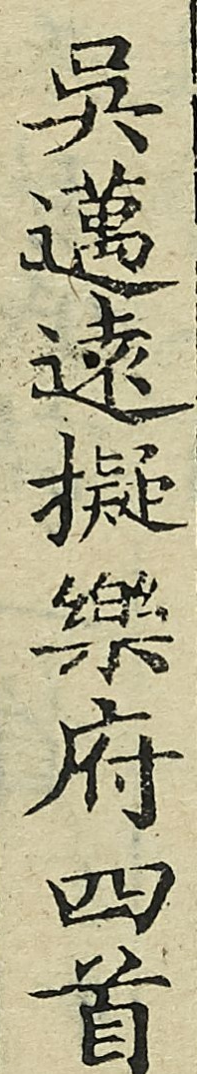吳邁遠擬樂府四首
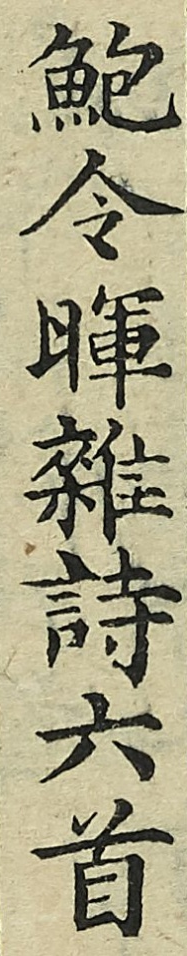鮑令暉雜詩六首
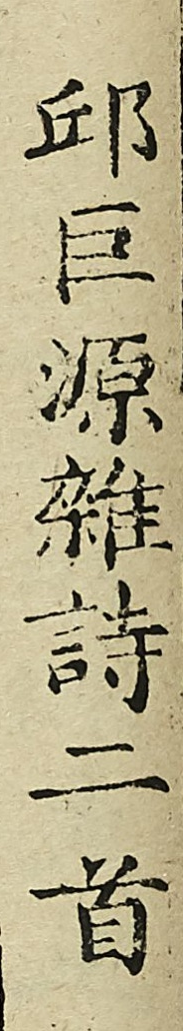邱巨源雜詩二首
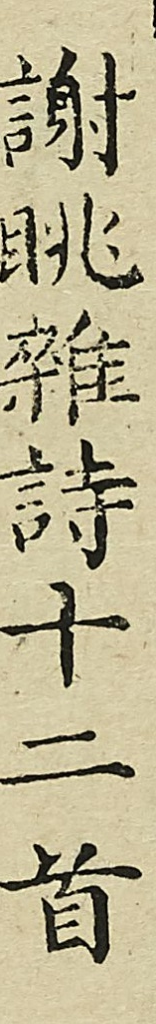謝朓雜詩十二首
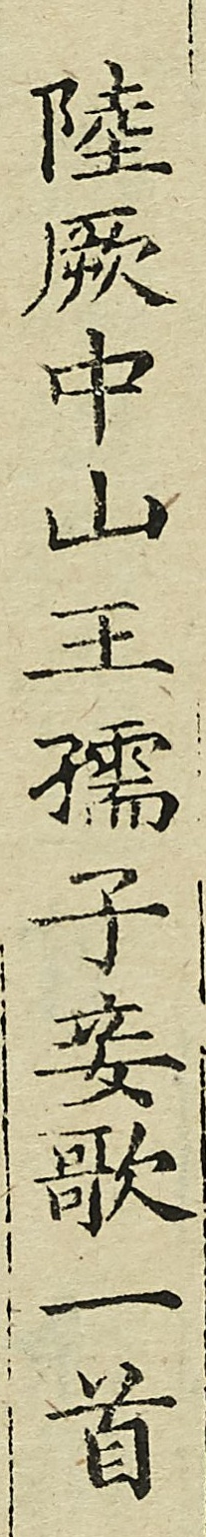陸厥中山王孺子妾歌一首
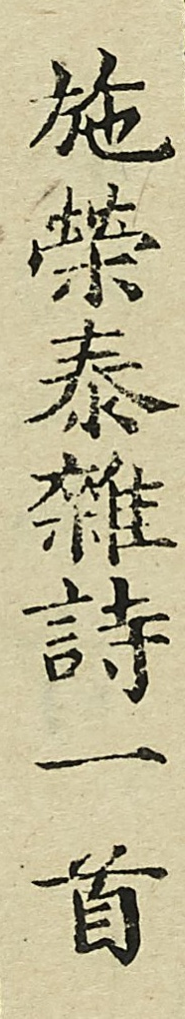施榮泰雜詩一首
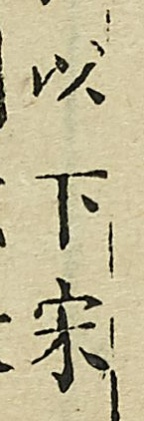以下宋
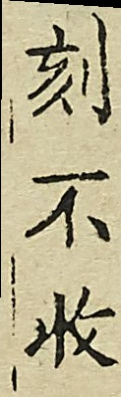刻不收
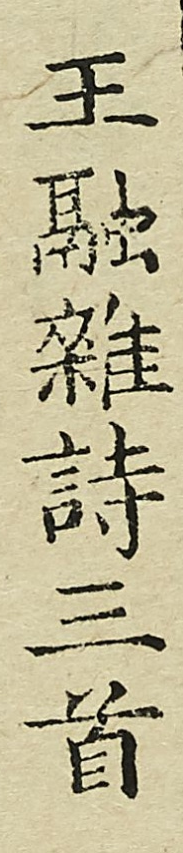王融雜詩三首
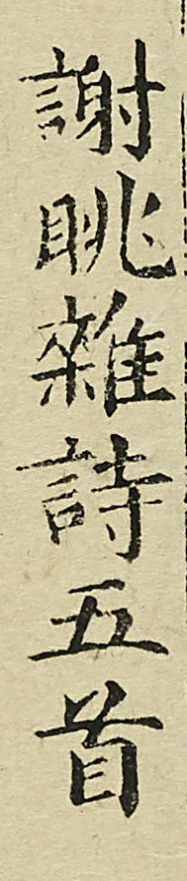謝朓雜詩五首
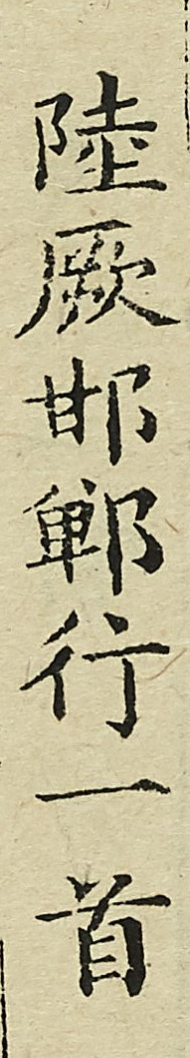陸厥邯鄲行一首
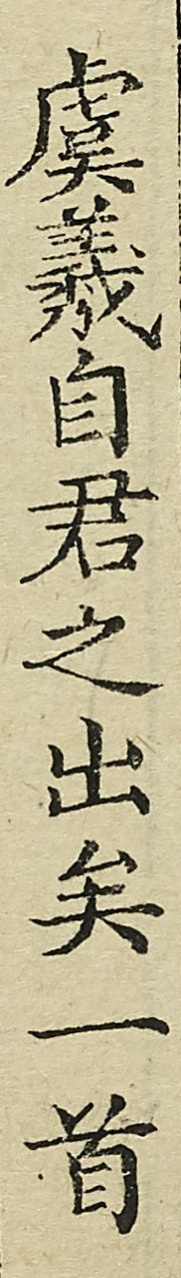虞羲自君之出矣一首
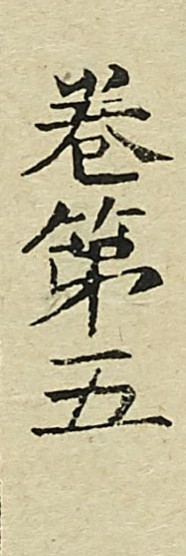卷第五
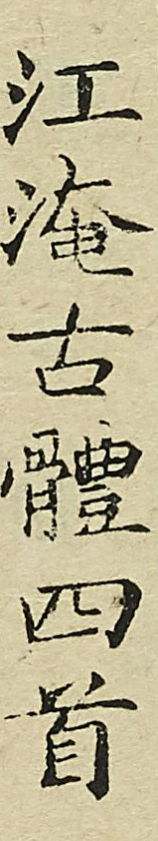江淹古體四首
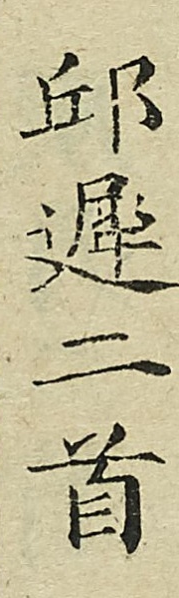邱遲二首
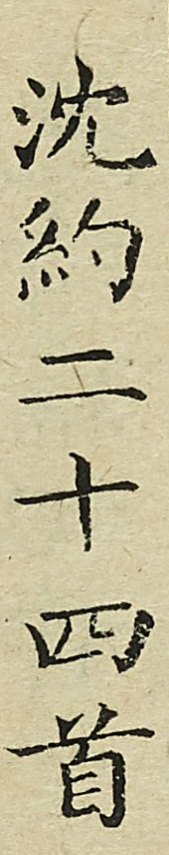沈約二十四首
